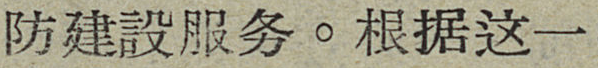防建設服务。根据这一
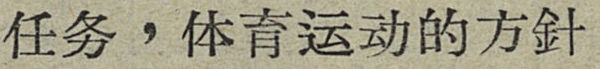任务，体育运动的方針
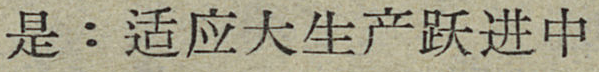是：适应大生产跃进中
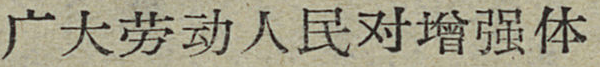广大劳动人民对增强体
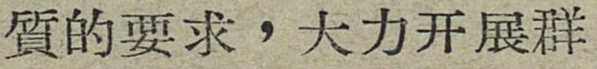質的要求，大力开展群
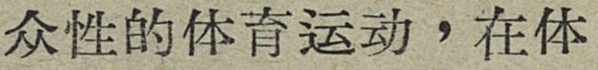众性的体育运动，在体
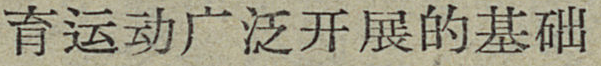育运动广泛开展的基础
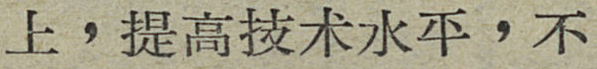上，提高技术水平，不
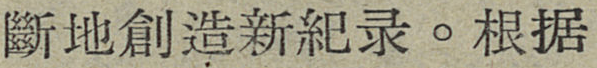斷地創造新紀录。根据
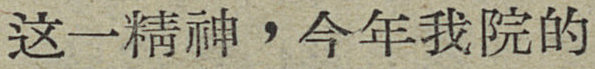这一精神，今年我院的
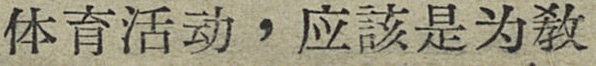体育活动，应該是为敎
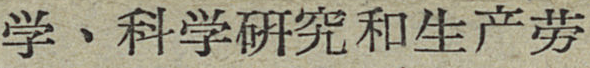学、科学研究和生产劳
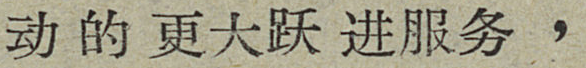动的更大跃进服务，
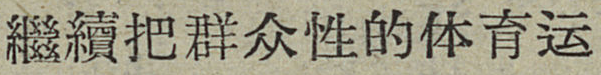繼續把群众性的体育运
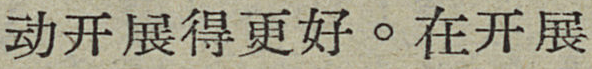动开展得更好。在开展
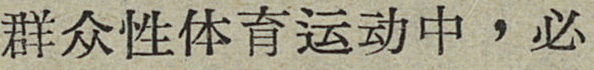群众性体育运动中，必
